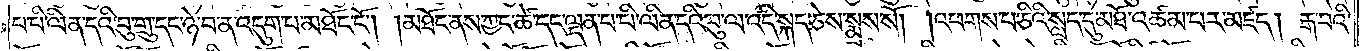པ་པི་ལིན་དའི་བུ་གྲུ་དང་ཉེ་བ་ན་འདུག་པ་མཐོང་ངོ༌། །མཐོང་ནས་ཀྱང་ཚེ་དང་ལྡན་པ་པི་ལིན་དའི་བུ་ལ་འདི་སྐད་ཅེས་སྨྲས་སོ། །འཕགས་པ་ཅིའི་སླད་དུ་མཐོ་འཚམ་པར་མཛད། རྒ་བའི་
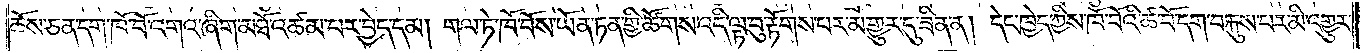ཆོས་ཅན་དག་ཁོ་བོ་འགའ་ཞིག་མཐོ་འཚམ་པར་བྱེད་དམ། གལ་ཏེ་ཁོ་བོས་ཡོན་ཏན་གྱི་ཚོགས་འདི་ལྟ་བུ་རྟོགས་པར་མ་གྱུར་དུ་ཟིན་ན། དེང་ཁྱེད་ཀྱིས་ཁོ་བོའི་ཚ་བོ་དག་བརྐུས་པར་མི་འགྱུར་
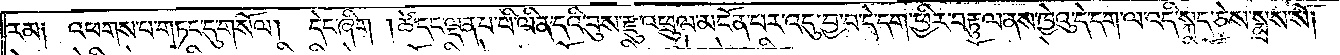རམ༑ འཕགས་པ་གཏང་དུ་གསོལ།  དེང་ཞིག །ཚེ་དང་ལྡན་པ་པི་ལིན་དའི་བུས་རྫུ་འཕྲུལ་མངོན་པར་འདུ་བྱ་བ་དེ་དག་ཕྱིར་བརྟུལ་ནས་ཁྱེའུ་དེ་དག་ལ་འདི་སྐད་ཅེས་སྨྲས་སོ། །
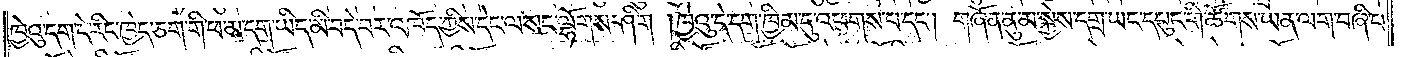ཁྱེའུ་དག་དེ་རིང་ཁྱེད་ཅག་གི་ཕ་མ་དག་ཡིད་མི་བདེ་བར་འཁོད་ཀྱིས་དེང་ལ་སང་ལྷོགས་ཤིག །ཁྱེའུ་དེ་དག་ཁྱིམ་དུ་འཕགས་པ་དང༌། གཞོན་ནུ་མ་སྐྱེས་དགྲ་ཡང་དཔུང་གི་ཚོགས་ཡན་ལག་བཞི་པ་
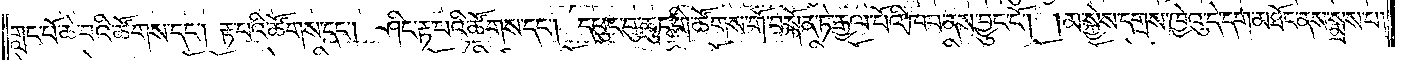གླང་པོ་ཆེ་བའི་ཚོགས་དང༌། རྟ་པའི་ཚོགས་དང༌། ཤིང་རྟ་པའི་ཚོགས་དང༌། དཔུང་བུ་ཆུང་གི་ཚོགས་གོ་བསྐོན་ཏེ་རྒྱལ་པོའི་ཁབ་ནས་བྱུང་ངོ༌། །མ་སྐྱེས་དགྲས་ཁྱེའུ་དེ་དག་མཐོང་ནས་སྨྲས་པ་
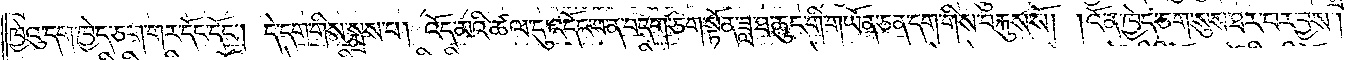ཁྱེའུ་དག་ཁྱེད་ཅག་གར་དོང་དོང༌། དེ་དག་གིས་སྨྲས་པ། འོད་མའི་ཚལ་དུ་འདོང་བ་ན་བདག་ཅག་སྟོན་ཟླ་ཐ་ཆུང་གི་གཡོན་ཅན་དག་གིས་བརྐུས་སོ། །འོ་ན་ཁྱེད་ཅག་སུས་ཐར་བར་བྱས།
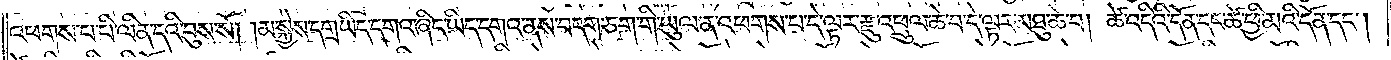འཕགས་པ་པི་ལིན་དའི་བུས་སོ། །མ་སྐྱེས་དགྲ་ཡིད་དགའ་ཞིང་ཡིད་དགའ་ནས་བདག་ཅག་གི་ཡུལ་ན་འཕགས་པ་དེ་ལྟར་རྫུ་འཕྲུལ་ཆེ་བ་དེ་ལྟར་མཐུ་ཆེ་བ། ཚེ་འདིའི་དོན་དང་ཚེ་ཕྱི་མའི་དོན་དང༌།
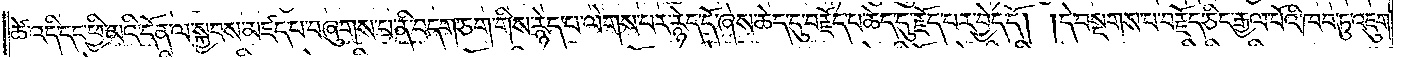ཚེ་འདི་དང་ཕྱི་མའི་དོན་ལ་སྐྱབས་མཛད་པ་བཞུགས་པ་ནི་བདག་ཅག་གིས་རྙེད་པ་ལེགས་པར་རྙེད་དོ་ཞེས་ཆེད་དུ་བརྗོད་པ་ཆེད་དུ་རྗོད་པར་བྱེད་དོ། །དེ་བསྔགས་པ་བརྗོད་ཅིང་རྒྱལ་པོའི་ཁབ་ཏུ་འཇུག་
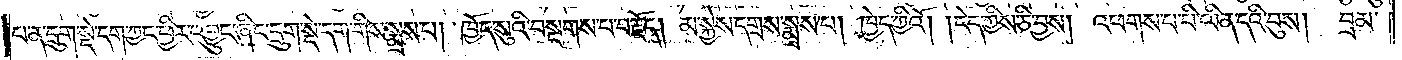པ་ན་དྲུག་སྡེ་དག་ཀྱང་ཕྱིར་འབྱུང་ཞིང་དྲུག་སྡེ་དག་གིས་སྨྲས་པ། ཁྱོད་སུའི་བསྔགས་པ་བརྗོད། མ་སྐྱེས་དགྲས་སྨྲས་པ། ཁྱེད་ཀྱིའོ། །ངེད་ཀྱིས་ཅི་བྱས། འཕགས་པ་པི་ལིན་དའི་བུས།  བྲམ་
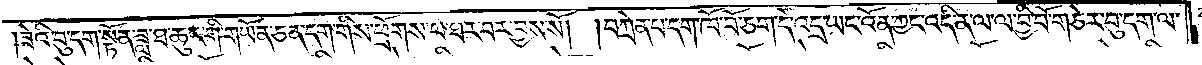ཟེའི་བུ་དག་སྟོན་ཟླ་ཐ་ཆུང་གི་གཡོན་ཅན་དག་གིས་ཕྲོགས་པ་ཐར་བར་བྱས་སོ། །བཀྲེན་པ་དག་ཁོ་བོ་ཅག་དེ་འདྲ་ཡང་འོན་ཀྱང་འདི་ན་ལ་ལ་བྱི་བོ་གཅེར་བུ་དག་ལ་
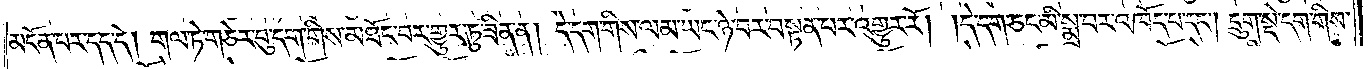མངོན་པར་དད་དེ། གལ་ཏེ་གཅེར་བུ་དག་གིས་མཐོང་བར་གྱུར་ཏུ་ཟིན་ན། དེ་དག་གིས་ལམ་ཡང་ཉེ་བར་བསྟན་པར་འགྱུར་རོ། །དེ་དག་ཅང་མི་སྨྲ་བར་འཁོད་པ་དང༌། དྲུག་སྡེ་དག་གིས་
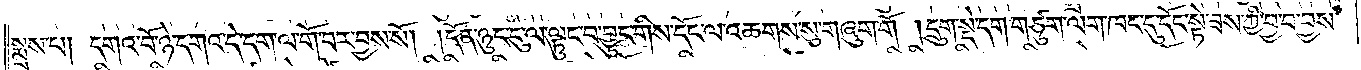སྨྲས་པ། དགའ་བོ་ཉེ་དགའ་དེ་དག་ལ་གོ་བར་བྱས་སོ། །དོན་ཉུང་ངུ་ལ་ལྟུང་བ་བྱུང་གིས་དོང་ལ་འཆགས་སུ་གཞུག་གོ །དྲུག་སྡེ་དག་གཙུག་ལག་ཁང་དུ་དོང་སྟེ་ཟས་ཀྱི་བྱ་བ་བྱས་
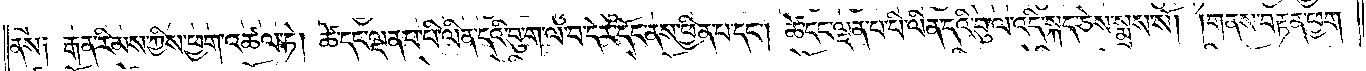ནས༑ རྒན་རིམས་ཀྱིས་ཕྱག་འཚལ་ཏེ། ཚེ་དང་ལྡན་པ་པི་ལིན་དའི་བུ་ག་ལ་བ་དེར་དོང་ནས་ཕྱིན་པ་དང༌། ཚེ་དང་ལྡན་པ་པི་ལིན་དའི་བུ་ལ་འདི་སྐད་ཅེས་སྨྲས་སོ། །གནས་བརྟན་ཕྱག་
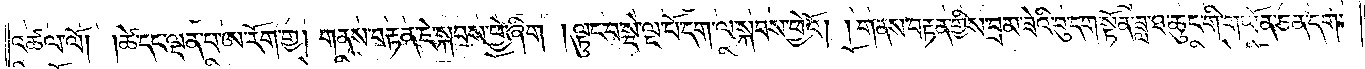འཚལ་ལོ། །ཚེ་དང་ལྡན་པ་ཨ་རོག་གྱ། གནས་བརྟན་ཇེ་སྐབས་ཕྱེ་ཞིག །ལྟུང་བ་སྡེ་ལྔ་པོ་དག་ལ་སྐབས་ཕྱེའོ། །གནས་བརྟན་གྱིས་བྲམ་ཟེའི་བུ་དག་སྟོན་ཟླ་ཐ་ཆུང་གི་གཡོན་ཅན་དག་
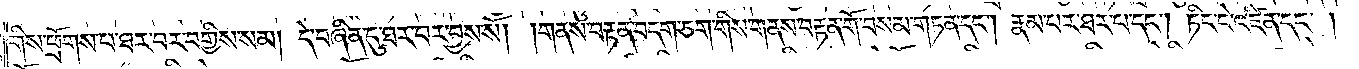གིས་ཕྲོགས་པ་ཐར་བར་བགྱིས་སམ། དེ་བཞིན་དུ་ཐར་བར་བྱས་སོ། །གནས་བརྟན་བདག་ཅག་གིས་གནས་བརྟན་གོ་བསམ་གཏན་དང༌། རྣམ་པར་ཐར་པ་དང༌། ཏིང་ངེ་འཛིན་དང༌།
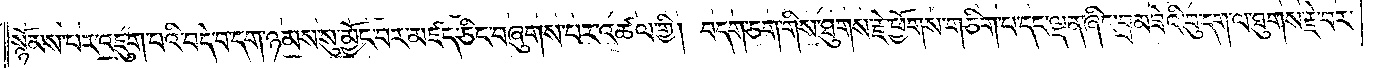སྙོམས་པར་འཇུག་པའི་བདེ་བ་དག་ཉམས་སུ་མྱོང་བར་མཛད་ཅིང་བཞུགས་པར་འཚལ་གྱི། བདག་ཅག་གིས་ཐུགས་རྗེ་ཕྱོགས་གཅིག་པ་དང་ལྡན་ཞིང་བྲམ་ཟེའི་བུ་དག་ལ་ཐུགས་རྗེ་བར་
